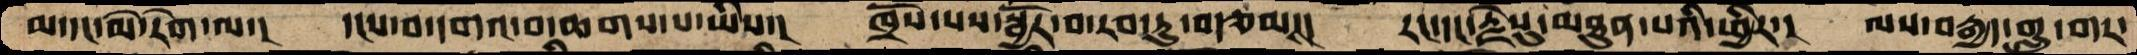མ་དང་མེ་རེག་ལ་། དངས་བ་དགའ་བ་ཆགས་པ་ཡིས་། ཁྲོས་པས་སྦྱོར་བ་རབ་ཏུ་བརྩམས་། རང་དང་རྗེསུ་མཐུན་པའི་ཕྱིར་། ལས་བརྒྱད་གླུ་གར་
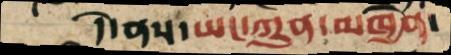དེ་ནས་ཡང་ཀུན་མཁྱེན་
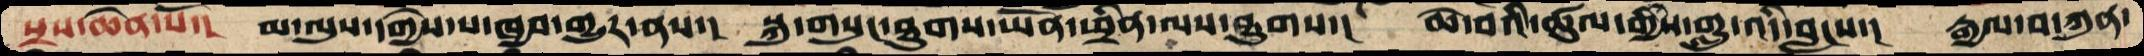སྲས་ཆེན་པོ་།  མ་ལུས་དགྱེས་པ་ཁྱབ་གྱུར་ནས་།  སྐུ་གསུང་ཐུགས་ཡོན་ཕྲིན་ལས་ཐུགས་།  ཆེ་བའི་ཚུལ་གྱིས་གླུ་་འདི་བླངས་།  རྒྱལ་བ་ཀུན་
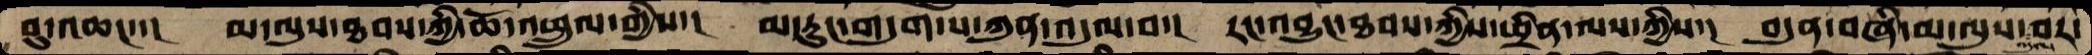བུ་འཆང་་། མ་ལུས་ཐབས་ཀྱི་ཆོ་འཕྲུལ་གྱིས་། མ་རུང་གདུག་པ་ཀུན་འདུལ་བ་། རང་འབྱུང་ཐབས་ཀྱིས་ཕྲིན་ལས་ཀྱིས་། བདུན་བཞི་མ་ལུས་འདུལ་བར་
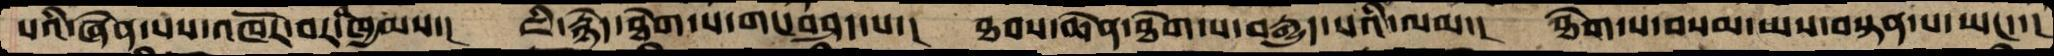པའི་ཞེན་པས་འཁོར་བར་འཁྱམས་། ཇི་སྙེད་ཐེག་པ་གང་བཤད་པ་། ཐབའ་ཆེན་ཐེག་པ་བརྒྱུད་པའི་ལམ་། ཐེག་པ་བསམ་ཡས་བསྟན་པ་ཡང་་།
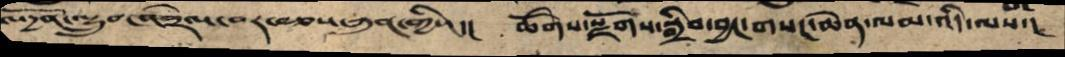ཨོདྱན་ལྷྲུབ་འབྲེལ་བར་བཅས་ཀུན་གྱིས་། ཚོགས་སྫོགས་སྒྲིབ་བྱང་གསང་ཆེན་ལམ་འདི་ལས་།
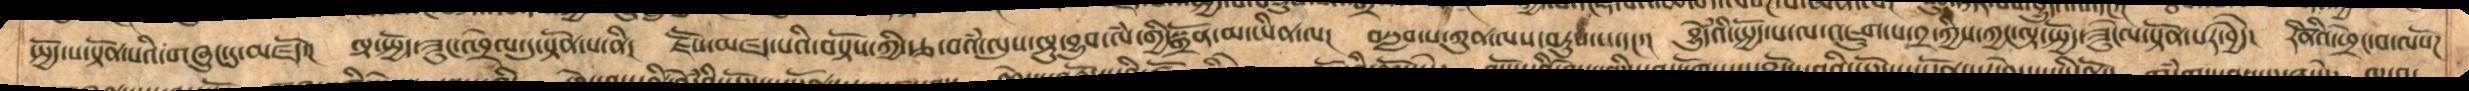སྤྱོད་པ་སྟོན་པའི་གཞུང་དུ་མཛདོ་། ལྟ་སྤྱོད་ཟུང་འབྲེལ་དུ་སྟོན་པ་ནི། ཇཽས་མཛད་པའི་བསྟོས་ཀྱི་རྩ་བའྃ་ལུས་ལྟུ་བྱུབ་ལྃ་གྱི་སྒྲོན་མ་ཡིན་ལ། བསླབ་པ་ཀུན་ལས་བཏུས་པ་དང་། བྱེུདྃའེ་སྤྱོད་པ་ལ་འཇུག་པ་༢་ཀྱིས་ཀྱང་ལྟ་སྤྱོད་ཟུངེལ་སྟོན་པར་བྱེདེ། རིནོའིཕྲེང་བ་ལསོཌ
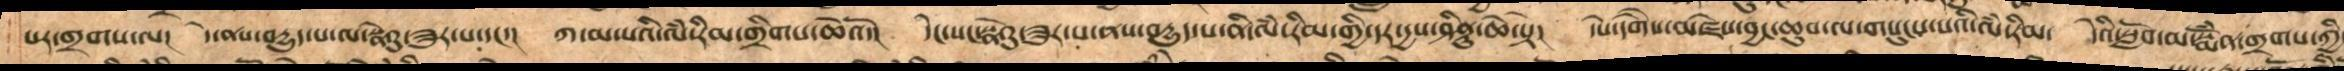པར་གྲགས་ལ། དེ་ནས་བདྱུད་པ་ལ་ནི་སྣེའུ་ཟུར་པ་དང་། ཀ་མ་པའི་ལྃ་རིམ་གྲིགས་ཆེའོ། དེང་སང་སྣེའུ་ཟུར་པ་ནས་བདྱུད་པ་ནི་ལྃ་རིམ་གྱི་དར་དྱས་ཤིནྟུ་ཆེ་སྟེ། དེས་དགཻས་མཛེས་བྱང་ཆུབ་ལ་གསུངས་པའི་ལྃ་རིམ། དེའི་སློབ་མ་སྨོྃན་གྲགས་ཀྱིས
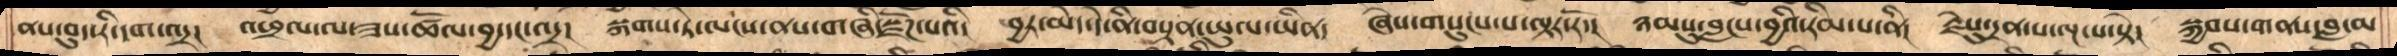ནས་བུད་རི་དྭག་འདྲ།  འཕྲལ་ལ་ཟས་ཚོལ་བྱ་དང་འདྲ། སྐགས་ཏེ་ལངས་ནས་གཞི་སྫོཌ་པའི།  བྱར་མེད་དེ་ནི་བསྟན་ཡུལ་ཡིན།  ཞེས་གསུངས་པ་ལྟར་རོ་།   ཉམསུ་་བླང་བྱའི་རིམ་པ་ནི།   རྗེསུ་དྲན་པ་ལྔ་པ་སྟེ། སྐྱབས་གནས་བླ་མ
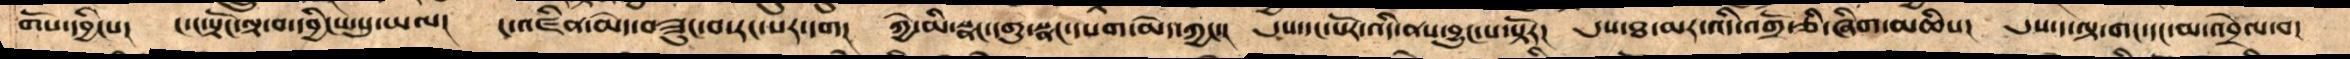གོས་དབྱིངས།   ང་ང་སྟོང་ལྟ་བ་དབྱིངས་སུ་ཡལ།  ང་འཛིན་མེད་བཟུང་བ་རང་སར་དག།   ཀྱེ་མི་སྣང་དགུ་སྣང་དཔག་མེད་ཀྱང་།  དུས་དང་པོར་འདི་ནས་བྱུང་པ་སྟོར།   དུས་ཐ་མར་འདི་འགྲོ་ཅི་ཞིག་མཆིས།  །དུས་ད་ལྟ་གང་དང་མ་འབྲེལ་བ།
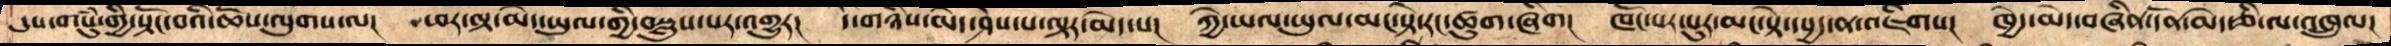དུས་གསུཾ་གྱི་སྟོང་བའི་ཆོས་ལུགས་ལ།  ཕར་ལྟ་མེད་ཡུལ་གྱི་བསླུས་པར་འགྱུར།  དེ་གཉིས་མེད་ཤེས་པ་ལྟར་མེད་པ།  ཀྱེ་ཡལ་ཡུལ་མང་སྟེ་རང་ཚུགས་ཞིག།  ཁོང་པར་པུར་མང་སྟེ་དཔྱད་ན་འཇིགས།  ཁྱེད་མེད་བཞིན་དོན་མེད་ཅི་ལ་འཁྲུལ།
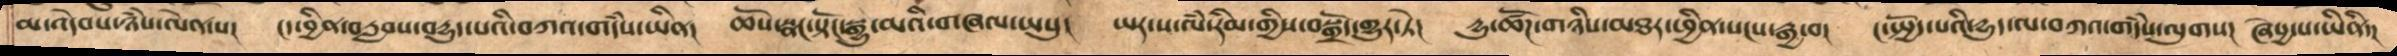མ་འདེབས་ཉཾས་ལེན་པ།    ང་བྱིན་བརླབས་བདྱུད་པའི་བཀའ་གདཾས་ཡིན།  ཆོས་སྣང་སྟོང་སྒྱུ་མའི་གཞལ་ཡསུ།  ཡར་ས་ལཾ་རིམ་གྱིས་བསྒྲོད་གྱུར་ཏེ།    དྱུ་ཚོཌ་གཉིས་མཐར་ཕྱིན་སངས་རྒྱ་བ།   ང་སྤྱོད་པའི་དྱུད་ལ་བཀའ་གདཾས་ལུགས།   ཞེསྱ་པ་ཡིནི་།
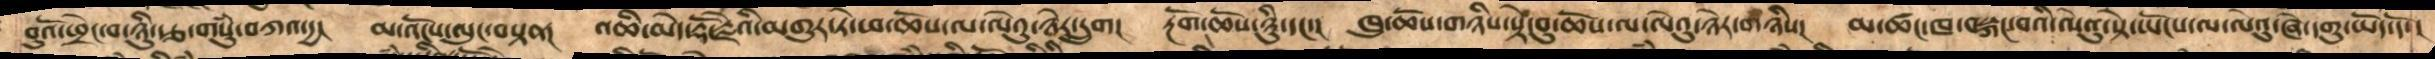བུའི་ཕྲེང་བ་ཉིུ་རྩ་གསུཾ་བཀའ་དྱ།   མ་འོངས་ལུང་བསྟན།  འཆི་མེད་རྡོ་རྗེའི་མགུར་ཏེ་ཕ་ཆོས་ལ་ལེའུ་ཉེར་དྲུག།   རྔོག་ཆོས་ཉིུ་དང་།  ཁུ་ཆོས་གཉིས་སྟེ་་བུ་ཆོས་ལ་ལེའུ་ཉེར་གཉིས།  མ་ཚང་ཁ་བསྐང་བའི་ལེའུ་སྟེ་ཡོངས་ལ་ལེའུ་ཞེ་དགུ་ཡོད་དོ་།
